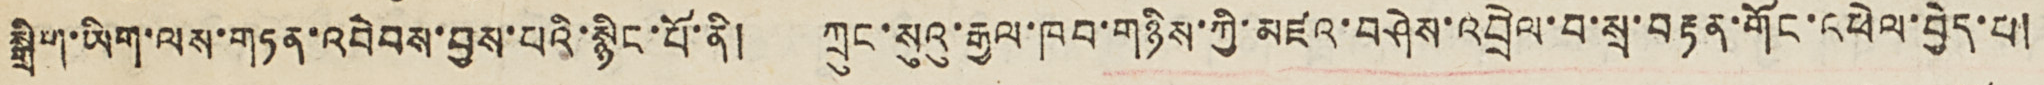སྒྲིག་ཡིག་ལས་གཏན་འབེབས་བྱས་པའི་སྙིང་པོ་ནི། ཀྲུང་སུའུ་རྒྱལ་ཁབ་གཉིས་ཀྱི་མཛའ་བཤེས་འབྲེལ་བ་སྲ་བརྟན་གོང་འཕེལ་བྱེད་པ།
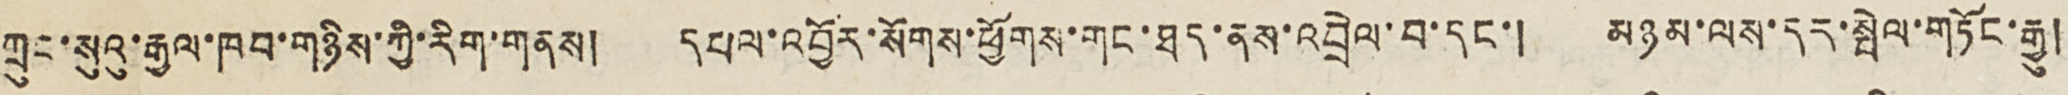ཀྲུང་སུའུ་རྒྱལ་ཁབ་གཉིས་ཀྱི་རིག་གནས། དཔལ་འབྱོར་སོགས་ཕྱོགས་གང་ཐད་ནས་འབྲེལ་བ་དང་། མཉམ་ལས་དང་སྤེལ་གཏོང་རྒྱུ།
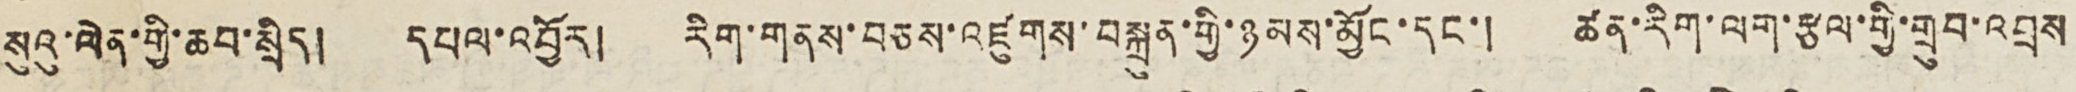སུའུ་ལེན་གྱི་ཆབ་སྲིད། དཔལ་འབྱོར། རིག་གནས་བཅས་འཛུགས་བསྐྲུན་གྱི་ཉམས་མྱོང་དང་། ཚན་རིག་ལག་རྩལ་གྱི་གྲུབ་འབྲས
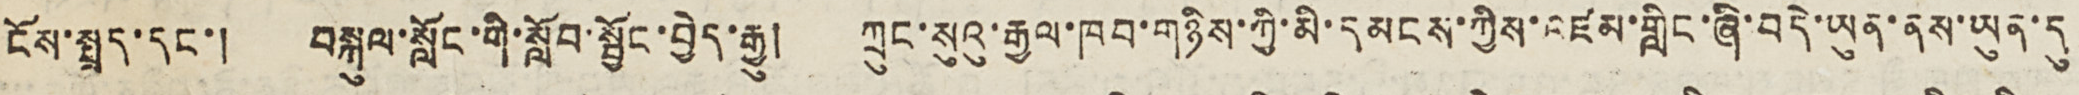ངོས་སྤྲད་དང་། བསྐུལ་སློང་གི་སློབ་སྦྱོང་བྱེད་རྒྱུ། ཀྲུང་སུའུ་རྒྱལ་ཁབ་གཉིས་ཀྱི་མི་དམངས་ཀྱིས་འཛམ་གླིང་ཞི་བདེ་ཡུན་ནས་ཡུན་དུ
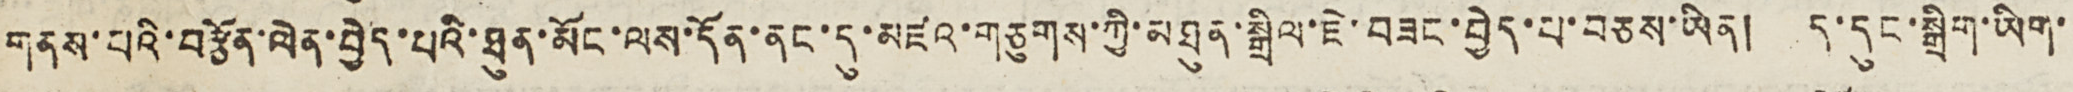གནས་པའི་བརྩོན་ལེན་བྱེད་པའི་ཐུན་མོང་ལས་དོན་ནང་དུ་མཛའ་གཅུགས་ཀྱི་མཐུན་སྒྲིལ་ཇེ་བཟང་བྱེད་པ་བཅས་ཡིན། ད་དུང་སྒྲིག་ཡིག་
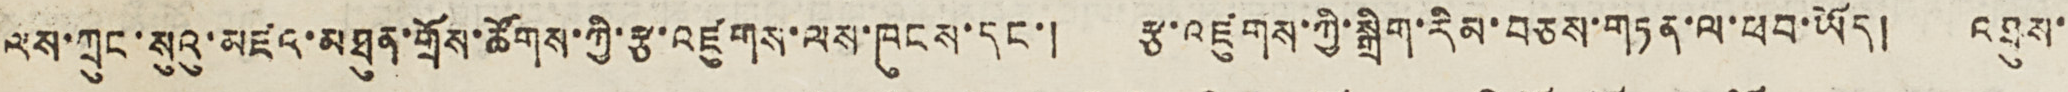ལས་ཀྲུང་སུའུ་མཛའ་མཐུན་གྲོས་ཚོགས་ཀྱི་རྩ་འཛུགས་ལས་ཁུངས་དང་། རྩ་འཛུགས་ཀྱི་སྒྲིག་རིམ་བཅས་གཏན་ལ་ཕབ་ཡོད། འཐུས་
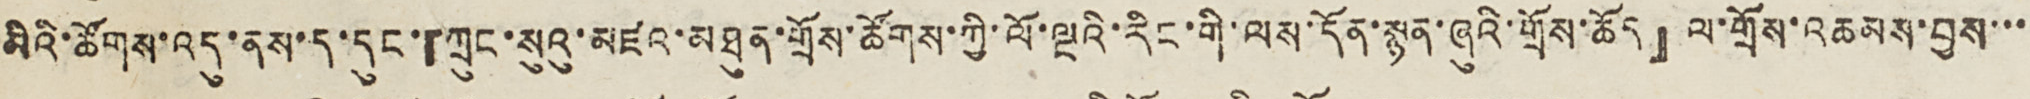མིའི་ཚོགས་འདུ་ནས་ད་དུང་「ཀྲུང་སུའུ་མཛའ་མཐུན་གྲོས་ཚོགས་ཀྱི་ལོ་ལྔའི་རིང་གི་ལས་དོན་སྙན་ཞུའི་གྲོས་ཆོད」 ལ་གྲོས་འཆམས་བྱས་་་
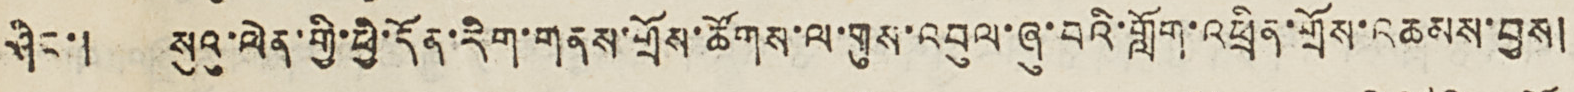ཤིང་། སུའུ་ལེན་གྱི་ཕྱི་དོན་རིག་གནས་གྲོས་ཚོགས་ལ་གུས་འབུལ་ཞུ་བའི་གློག་འཕྲིན་གྲོས་འཆམས་བྱས།
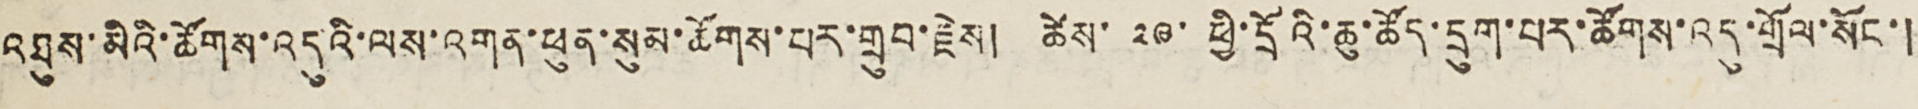འཐུས་མིའི་ཚོགས་འདུའི་ལས་ཕུན་སུམ་ཆོགས་པར་གྲུབ་རྗེས། ཚེས་ ༢༠་ ཕྱི་དྲོའི་ཆུ་ཚོད་དྲུག་པར་ཚོགས་འདུ་གྲོལ་སོང་།
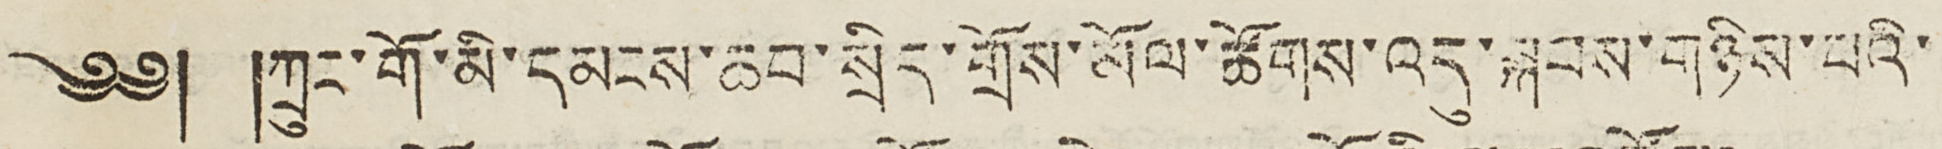༄༅། །ཀྲུང་གོ་མི་དམངས་ཆབ་སྲིད་གྲོས་མོལ་ཚོགས་འདུ་སྐབས་གཉིས་པའི་
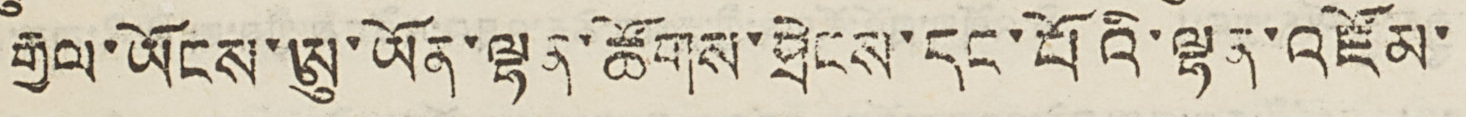རྒྱལ་ཡོངས་ཨུ་ཡོན་ལྷན་ཚོགས་ཐེངས་དང་པོའི་ལྷན་འཛོམ་
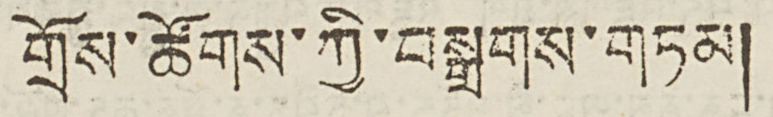གྲོས་ཚོགས་ཀྱི་བསྒྲགས་གཏམ།
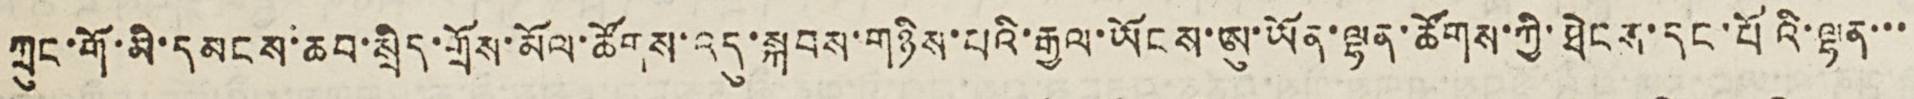ཀྲུང་གོ་མི་དམངས་ཆབ་སྲིད་གྲོས་མོལ་ཚོགས་འདུ་སྐབས་གཉིས་པའི་རྒྱལ་ཡོངས་ཨུ་ཡོན་ལྷན་ཚོགས་ཀྱི་ཐེངས་དང་པོའི་ལྷན་་་
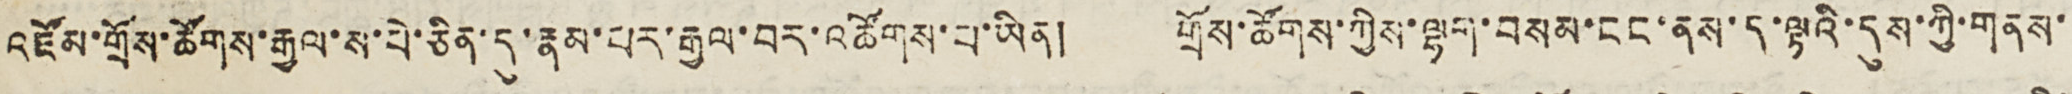འཛོམ་གྲོས་ཚོགས་རྒྱལ་ས་པེ་ཅིན་དུ་རྣམ་པར་རྒྱལ་བར་འཚོགས་པ་ཡིན། གྲོས་ཚོགས་ཀྱིས་ལྷག་བསམ་ངང་ནས་ད་ལྟའི་དུས་ཀྱི་གནས་
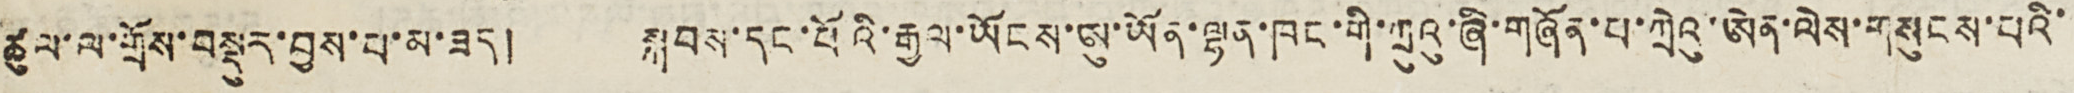ཚུལ་ལ་གྲོས་བསྡུར་བྱས་པ་མ་ཟད། སྐབས་དང་པོའི་རྒྱལ་ཡོངས་ཨུ་ཡོན་ལྷན་ཁང་གི་ཀྲུའུ་ཞི་གཞོན་པ་ཀྲེའུ་ཨེན་ལེས་གསུངས་པའི་
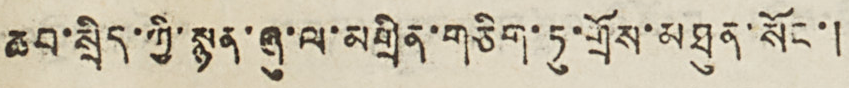ཆབ་སྲིད་ཀྱི་སྙན་ཞུ་ལ་མགྲིན་གཅིག་ཏུ་གྲོས་མཐུན་སོང་།
